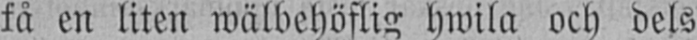få en liten wälbeböflig hwila och dels
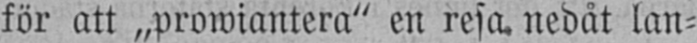för att „prowiantera" en resa nedåt lan-
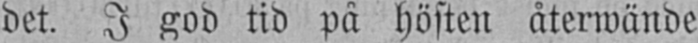det. I god tid på hösten återwände
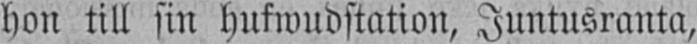hon till sin hufwudstation, Juntusranta,
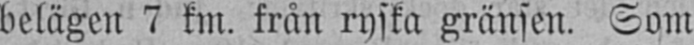belägen 7 km. från ryska gränsen. Som
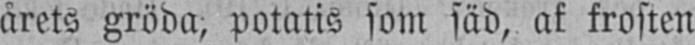årets gröda, potatis som säd, af frosten
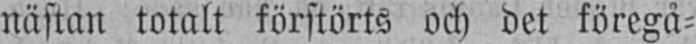nästan totalt förstörts och det föregå-
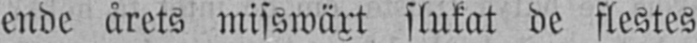ende årets misswäxt slukat de flestes
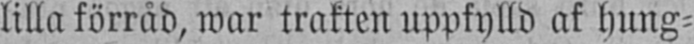lilla förråd, war trakten uppfylld af hung-
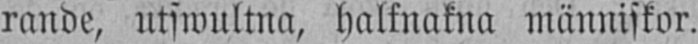rande, utswultna, halfnakna människor.
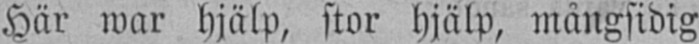Här war hjälp, stor hjälp, mångsidig
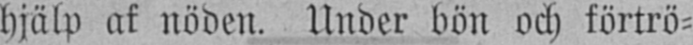hjälp af nöden. Under bön och förtrö-
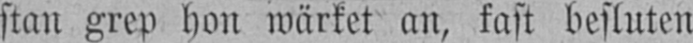stan grep hon wärket an, fast besluten
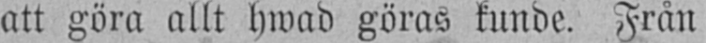att göra allt hwad göras kunde. Från
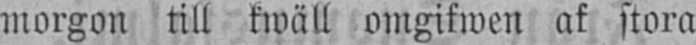morgon till kwäll omgifwen af stora
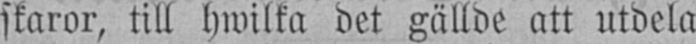skaror, till hwilka det gällde att utdela
